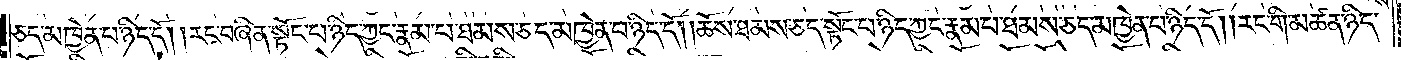ཅད་མཁྱེན་པ་ཉིད་དོ། །རང་བཞིན་སྟོང་པ་ཉིད་ཀྱང་རྣམ་པ་ཐམས་ཅད་མཁྱེན་པ་ཉིད་དོ། །ཆོས་ཐམས་ཅད་སྟོང་པ་ཉིད་ཀྱང་རྣམ་པ་ཐམས་ཅད་མཁྱེན་པ་ཉིད་དོ། །རང་གི་མཚན་ཉིད་
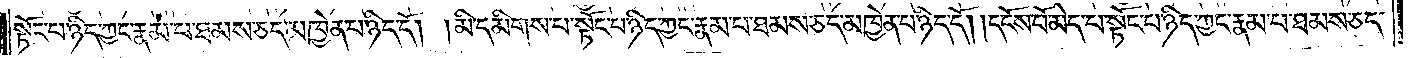སྟོང་པ་ཉིད་ཀྱང་རྣམ་པ་ཐམས་ཅད་མཁྱེན་པ་ཉིད་དོ། །མི་དམིགས་པ་སྟོང་པ་ཉིད་ཀྱང་རྣམ་པ་ཐམས་ཅད་མཁྱེན་པ་ཉིད་དོ། །དངོས་པོ་མེད་པ་སྟོང་པ་ཉིད་ཀྱང་རྣམ་པ་ཐམས་ཅད་
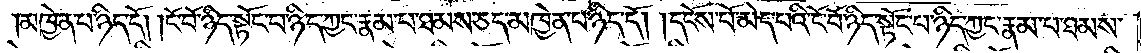མཁྱེན་པ་ཉིད་དོ། །ངོ་བོ་ཉིད་སྟོང་པ་ཉིད་ཀྱང་རྣམ་པ་ཐམས་ཅད་མཁྱེན་པ་ཉིད་དོ། །དངོས་པོ་མེད་པའི་ངོ་བོ་ཉིད་སྟོང་པ་ཉིད་ཀྱང་རྣམ་པ་ཐམས་
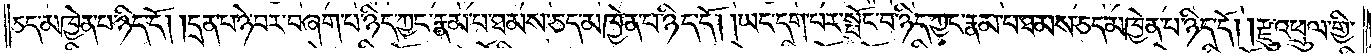ཅད་མཁྱེན་པ་ཉིད་དོ། །དྲན་པ་ཉེ་བར་བཞག་པ་ཉིད་ཀྱང་རྣམ་པ་ཐམས་ཅད་མཁྱེན་པ་ཉིད་དོ། །ཡང་དག་པར་སྤོང་བ་ཉིད་ཀྱང་རྣམ་པ་ཐམས་ཅད་མཁྱེན་པ་ཉིད་དོ། །རྫུ་འཕྲུལ་གྱི་
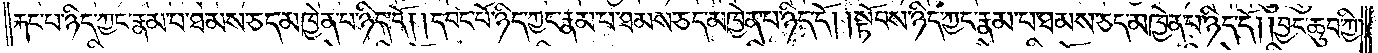རྐང་པ་ཉིད་ཀྱང་རྣམ་པ་ཐམས་ཅད་མཁྱེན་པ་ཉིད་དོ། །དབང་པོ་ཉིད་ཀྱང་རྣམ་པ་ཐམས་ཅད་མཁྱེན་པ་ཉིད་དོ། །སྟོབས་ཉིད་ཀྱང་རྣམ་པ་ཐམས་ཅད་མཁྱེན་པ་ཉིད་དོ། །བྱང་ཆུབ་ཀྱི་
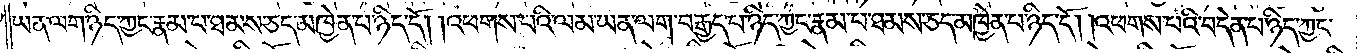ཡན་ལག་ཉིད་ཀྱང་རྣམ་པ་ཐམས་ཅད་མཁྱེན་པ་ཉིད་དོ། །འཕགས་པའི་ལམ་ཡན་ལག་བརྒྱད་པ་ཉིད་ཀྱང་རྣམ་པ་ཐམས་ཅད་མཁྱེན་པ་ཉིད་དོ། །འཕགས་པའི་བདེན་པ་ཉིད་ཀྱང་
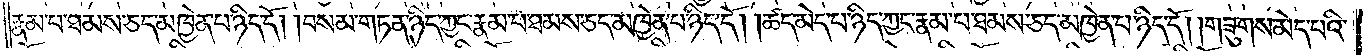རྣམ་པ་ཐམས་ཅད་མཁྱེན་པ་ཉིད་དོ། །བསམ་གཏན་ཉིད་ཀྱང་རྣམ་པ་ཐམས་ཅད་མཁྱེན་པ་ཉིད་དོ། །ཚད་མེད་པ་ཉིད་ཀྱང་རྣམ་པ་ཐམས་ཅད་མཁྱེན་པ་ཉིད་དོ། །གཟུགས་མེད་པའི་
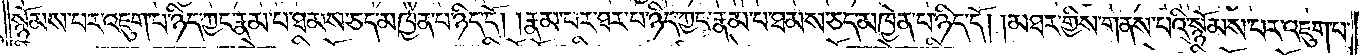སྙོམས་པར་འཇུག་པ་ཉིད་ཀྱང་རྣམ་པ་ཐམས་ཅད་མཁྱེན་པ་ཉིད་དོ། །རྣམ་པར་ཐར་པ་ཉིད་ཀྱང་རྣམ་པ་ཐམས་ཅད་མཁྱེན་པ་ཉིད་དོ། །མཐར་གྱིས་གནས་པའི་སྙོམས་པར་འཇུག་པ་
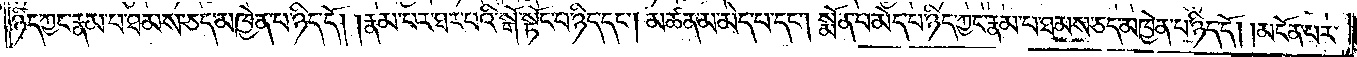ཉིད་ཀྱང་རྣམ་པ་ཐམས་ཅད་མཁྱེན་པ་ཉིད་དོ། །རྣམ་པར་ཐར་པའི་སྒོ་སྟོང་པ་ཉིད་དང༌། མཚན་མ་མེད་པ་དང༌། སྨོན་པ་མེད་པ་ཉིད་ཀྱང་རྣམ་པ་ཐམས་ཅད་མཁྱེན་པ་ཉིད་དོ། །མངོན་པར་
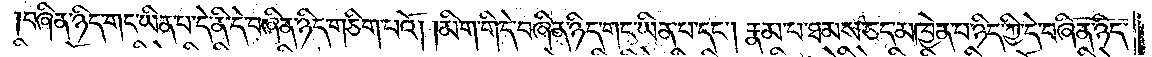བཞིན་ཉིད་གང་ཡིན་པ་དེ་ནི་དེ་བཞིན་ཉིད་གཅིག་པའོ། །མིག་གི་དེ་བཞིན་ཉིད་གང་ཡིན་པ་དང༌། རྣམ་པ་ཐམས་ཅད་མཁྱེན་པ་ཉིད་ཀྱི་དེ་བཞིན་ཉིད་
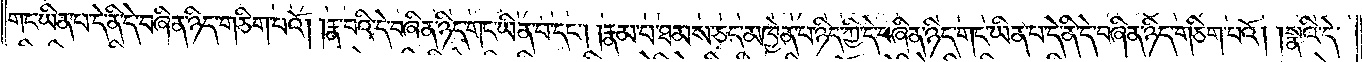གང་ཡིན་པ་དེ་ནི་དེ་བཞིན་ཉིད་གཅིག་པའོ། །རྣ་བའི་དེ་བཞིན་ཉིད་གང་ཡིན་པ་དང༌། རྣམ་པ་ཐམས་ཅད་མཁྱེན་པ་ཉིད་ཀྱི་དེ་བཞིན་ཉིད་གང་ཡིན་པ་དེ་ནི་དེ་བཞིན་ཉིད་གཅིག་པའོ། །སྣའི་དེ་
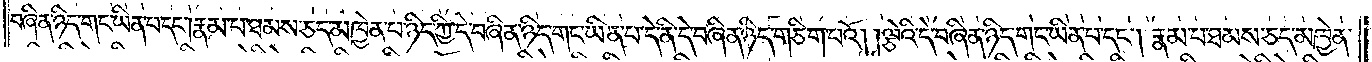བཞིན་ཉིད་གང་ཡིན་པ་དང༌། རྣམ་པ་ཐམས་ཅད་མཁྱེན་པ་ཉིད་ཀྱི་དེ་བཞིན་ཉིད་གང་ཡིན་པ་དེ་ནི་དེ་བཞིན་ཉིད་གཅིག་པའོ། །ལྕེའི་དེ་བཞིན་ཉིད་གང་ཡིན་པ་དང༌། རྣམ་པ་ཐམས་ཅད་མཁྱེན་
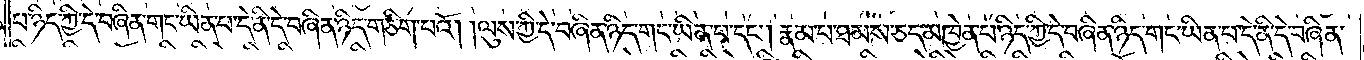པ་ཉིད་ཀྱི་དེ་བཞིན་ཉིད་གང་ཡིན་པ་དེ་ནི་དེ་བཞིན་ཉིད་གཅིག་པའོ། ལུས་ཀྱི་དེ་བཞིན་ཉིད་གང་ཡིན་པ་དང་། རྣམ་པ་ཐམས་ཅད་མཁྱེན་པ་ཉིད་ཀྱི་དེ་བཞིན་ཉིད་གང་ཡིན་པ་དེ་ནི་དེ་བཞིན་
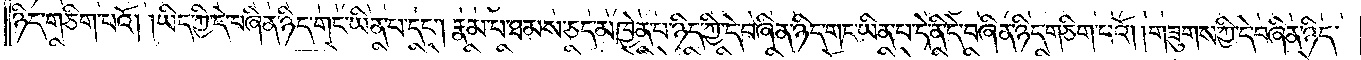ཉིད་གཅིག་པའོ། །ཡིད་ཀྱི་དེ་བཞིན་ཉིད་གང་ཡིན་པ་དང༌། རྣམ་པ་ཐམས་ཅད་མཁྱེན་པ་ཉིད་ཀྱི་དེ་བཞིན་ཉིད་གང་ཡིན་པ་དེ་ནི་དེ་བཞིན་ཉིད་གཅིག་པའོ། །གཟུགས་ཀྱི་དེ་བཞིན་ཉིད་
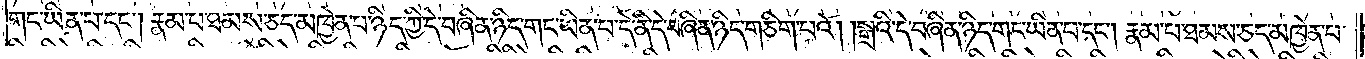གང་ཡིན་པ་དང༌། རྣམ་པ་ཐམས་ཅད་མཁྱེན་པ་ཉིད་ཀྱི་དེ་བཞིན་ཉིད་གང་ཡིན་པ་དེ་ནི་དེ་བཞིན་ཉིད་གཅིག་པའོ། །སྒྲའི་དེ་བཞིན་ཉིད་གང་ཡིན་པ་དང༌། རྣམ་པ་ཐམས་ཅད་མཁྱེན་པ་
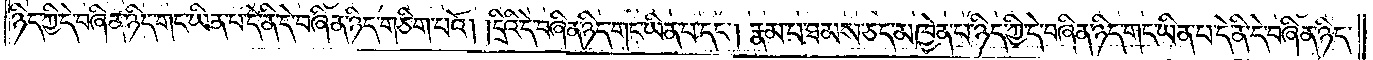ཉིད་ཀྱི་དེ་བཞིན་ཉིད་གང་ཡིན་པ་དེ་ནི་དེ་བཞིན་ཉིད་གཅིག་པའོ། །དྲིའི་དེ་བཞིན་ཉིད་གང་ཡིན་པ་དང༌། རྣམ་པ་ཐམས་ཅད་མཁྱེན་པ་ཉིད་ཀྱི་དེ་བཞིན་ཉིད་གང་ཡིན་པ་དེ་ནི་དེ་བཞིན་ཉིད་
